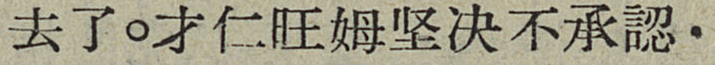去了。才仁旺姆坚决不承認，
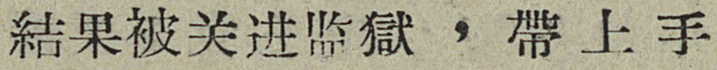結果被关进监獄，帶上手
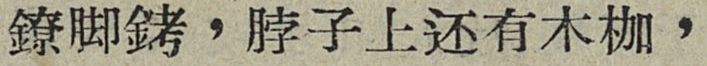鐐脚銬，脖子上还有木枷，
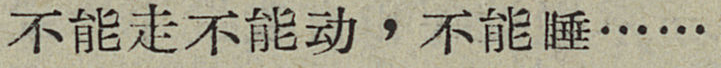不能走不能动，不能睡……
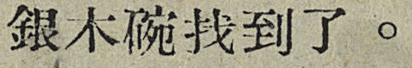銀木碗找到了。
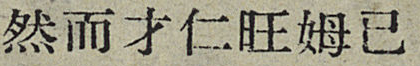然而才仁旺姆已
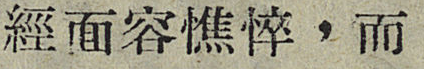經面容憔悴，而
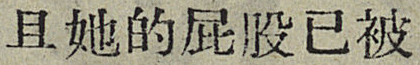且她的屁股已被
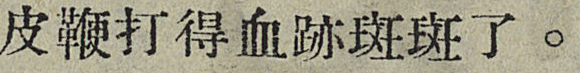皮鞭打得血跡斑斑了。
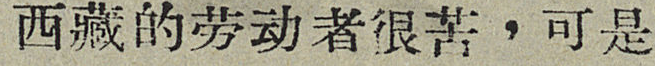西藏的劳动者很苦，可是
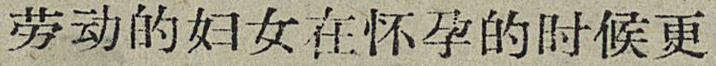劳动的妇女在怀孕的时候更
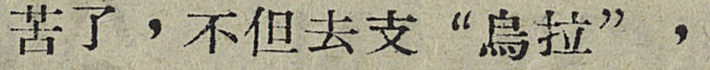苦了，不但去支“烏拉”，
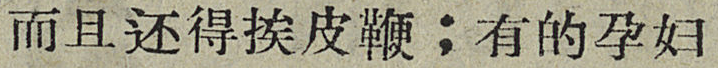而且还得挨皮鞭；有的孕妇
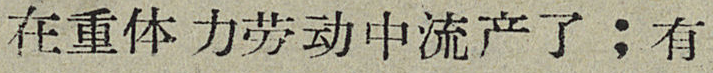在重体力劳动中流产了；有
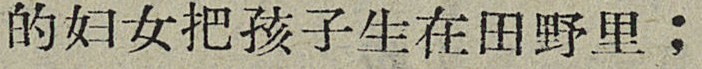的妇女把孩子生在田野里；
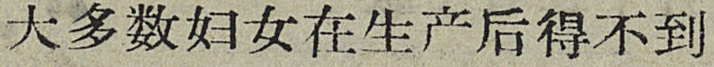大多数妇女在生产后得不到
